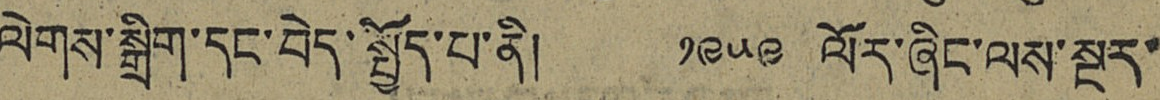ལེགས་སྒྲིག་དང་བེད་སྤྱོད་པ་ནི། ༡༩༥༩ ལོར་ཞིང་ལས་སྔར་
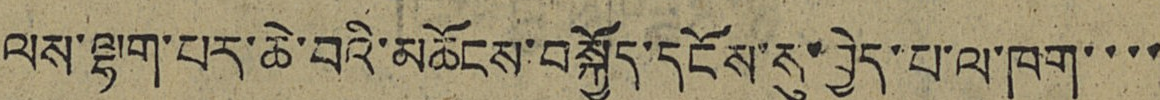ལས་ལྷག་པར་ཆེ་བའི་མཆོངས་བསྐྱོད་དངོས་སུ་བྱེད་པ་ལ་ཁག་་་་
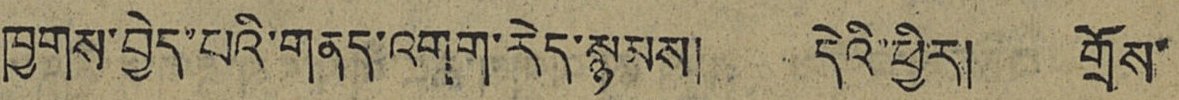ཁྱགས་བྱེད་པའི་གནད་འགག་རེད་སྙམས། དེའི་ཕྱིར། གྲོས་
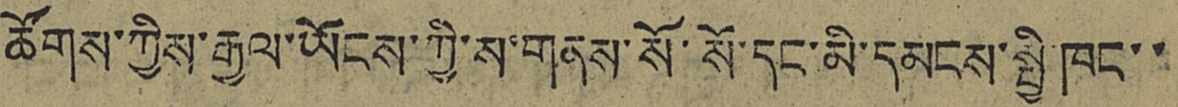ཚོགས་ཀྱིས་རྒྱལ་ཡོངས་ཀྱི་ས་གནས་སོ་སོ་དང་མི་དམངས་སྤྱི་ཁང་་
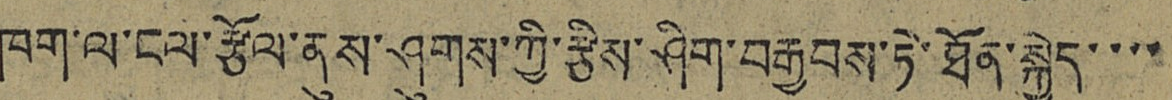ཁག་ལ་ངལ་རྩོལ་ནུས་ཤུགས་ཀྱི་རྩིས་ཤིག་བརྒྱབས་ཏེ་ཐོན་སྐྱེད་་་་
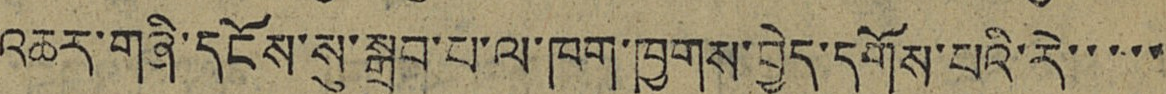འཆར་གཞི་དངོས་སུ་སྒྲུབ་པ་ལ་ཁག་ཁྱགས་བྱེད་དགོས་པའི་རེ་་་་་
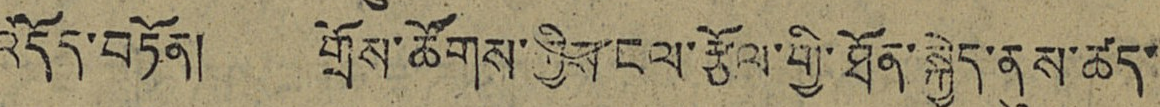འདོད་བཏོན། གྲོས་ཚོགས་ཀྱིས་ངལ་རྩོལ་གྱི་ཐོན་སྐྱེད་ནུས་ཚད་
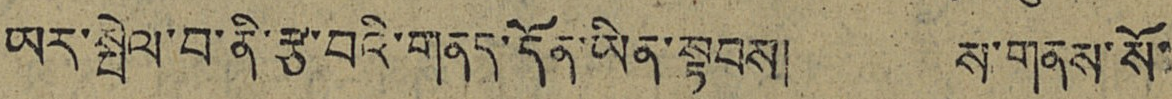ཡར་སྤེལ་བ་ནི་རྩ་བའི་གནད་དོན་ཡིན་སྟབས། ས་གནས་སོ་
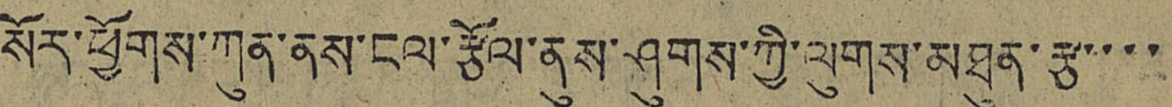སོར་ཕྱོགས་ཀུན་ནས་ངལ་རྩོལ་ནུས་ཤུགས་ཀྱི་ལུགས་མཐུན་རྩ་་་་
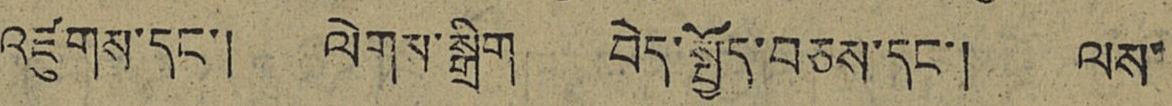འཛུགས་དང་། ལེགས་སྒྲིག བེད་སྤྱོད་བཅས་དང་། ལས་
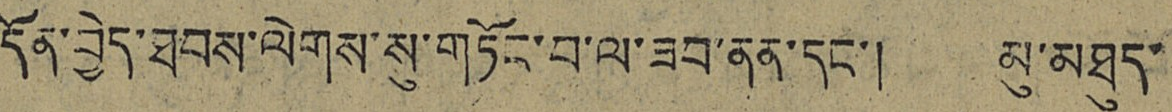དོན་བྱེད་ཐབས་ལེགས་སུ་གཏོང་བ་ལ་ཟབ་ནན་དང་། མུ་མཐུད་
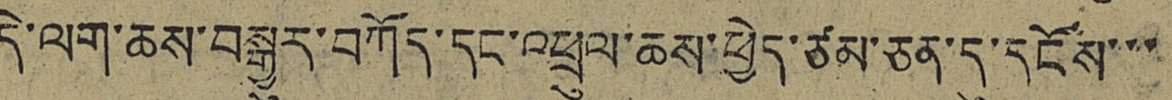དེ་ལག་ཆས་བསྒྱུར་བཀོད་དང་འཕྲུལ་ཆས་ཕྱེད་ཙམ་ཅན་དུ་དངོས་་་
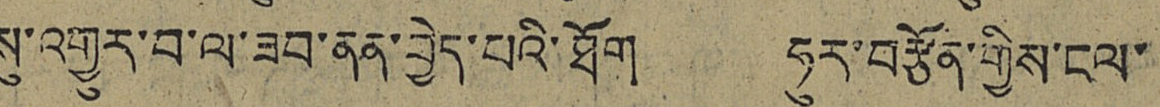སུ་འགྱུར་བ་ལ་ཟབ་ནན་བྱེད་པའི་ཐོག ཧུར་བརྩོན་གྱིས་ངལ་
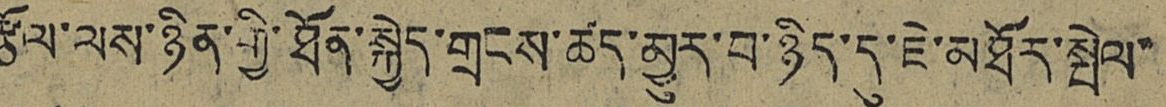རྩོལ་ལས་ཉིན་གྱི་ཐོན་སྐྱེད་གྲངས་ཚད་མྱུར་བ་ཉིད་དུ་ཇེ་མཐོར་སྤེལ་
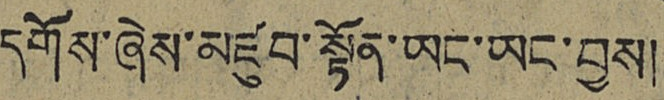དགོས་ཞེས་མཛུབ་སྟོན་ཡང་ཡང་བྱས།
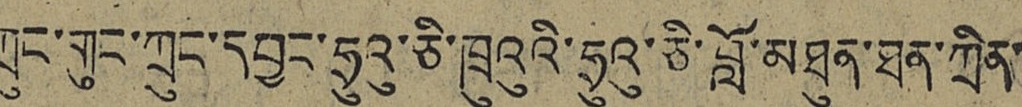ཀྲུང་གུང་ཀྲུང་དབྱང་ཧྲུའུ་ཅི་ཁྲུའུའི་ཧྲུའུ་ཅི་བློ་མཐུན་ཐན་ཀྲིན་
